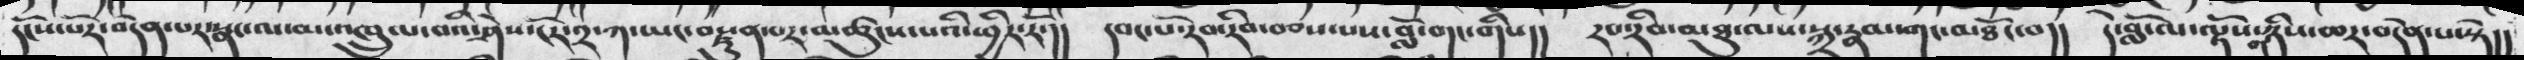དངོས་པོར་བདེན་པར་སྣང་ལ་མ་འཁྲུལ་བའི་ཤེས་ངོར་༢་ཀ་ཡང་བརྫུན་པར་མཚུངས་པའི་ཕྱིར་རོ་།།  དབང་པོ་རབ་རིབ་བཅས་པས་བློ་གང་གིས།།  རབ་རིབ་མཐུ་ལས་སྐྲ་རྣམ་གང་མཐོང་བ།།  དེ་བློ་ལ་ལྟོས་གཉིས་ཆར་བདེན་པ་སྟེ།།
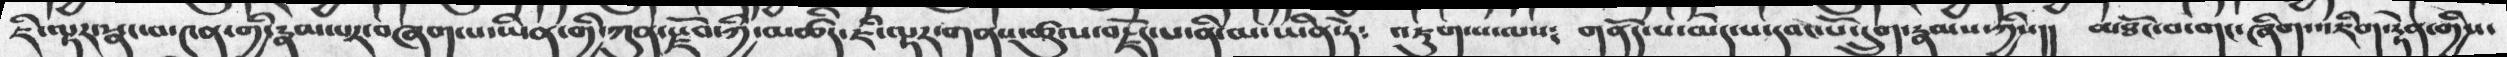ཇི་ལྟར་སྣང་བ་༤ན་གྱི་རྣམ་པར་བཞག་པ་ཡིན་གྱི་ཀུན་སྫོབ་ཀྱི་མཚིད་ཇི་ལྟར་གནས་ཚུལ་བརྗོད་པ་ནི་མ་ཡིན་ཏེ༴ འཇུག་པ་ལས༴ གནོད་པ་མེད་པ་དབང་པོ་དྲུག་རྣམས་ཀྱིས།། མཐོང་བ་གང་ཞིག་འཇིག་རྟེན་གྱིས་
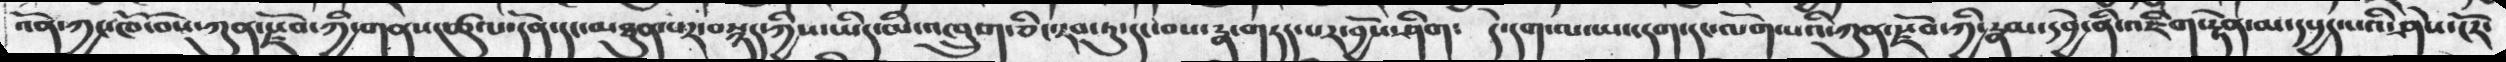འོན་ཀྱང་ཁོ་བོས་ཀུན་སྫོབ་ཀྱི་གནས་ཚུལ་དོན་དང་མཐུན་པར་བསྙད་ཀྱིས་ཡིད་མི་འཁྲུག་ཅིང་རབ་ཏུ་དང་བས་རྣ་གཏད་པར་བྱོས་ཤིག༴ དེ་དག་ལ་ཡང་དག་དང་ལོག་པའི་ཀུན་སྫོབ་ཀྱི་རྣམ་དབྱེ་ནི་འཇིག་རྟེན་མ་དཔྱད་པའི་ཤེས་ངོར་
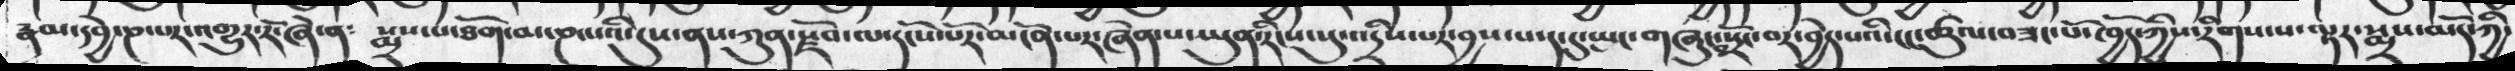རྣམ་དབྱེ་ཎ་པར་འགྱུར་རོ་ཞེ་ན༴  སྨྲས་པ་ཐོག་མ་ཎ་པའི་དུས་ནས་ཀུན་རྫོབ་ལ་དངོས་པོར་མངོན་པར་ཞེན་པ་ཡུན་རིངས་སུ་འདྲིས་པར་བྱས་པ་ད་དུང་སྤང་གཞུང་བསྤྲོང་བར་བྱེད་པའི་ངང་ཚུལ་བཟང་པོ་ཁྱོད་ཀྱིས་རིགས་པ་ལྟར་སྨྲས་མདོ་ཀྱི་
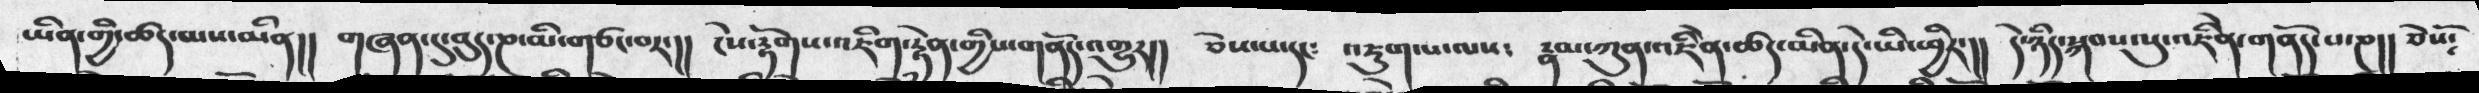ཡིན་གྱི་ཚད་མས་མིན།།  གཞན་དུ་བུད་ཎ་མི་གཙང་བར་།།  ངེས་རྟོགས་འཇིག་རྟེན་གྱིས་གནོད་འགྱུར།།  ཅེས་པ་དང༴  འཇུག་པ་ལས༴  རྣམ་ཀུན་འཇིནེ་ཚད་མིན་དེ་ཡིང་ཕྱིར་།།  དེ་ཉིད་སྐབས་སུ་འཇིནེ་གནོད་པ་ཎ།། ཅེསོ༴
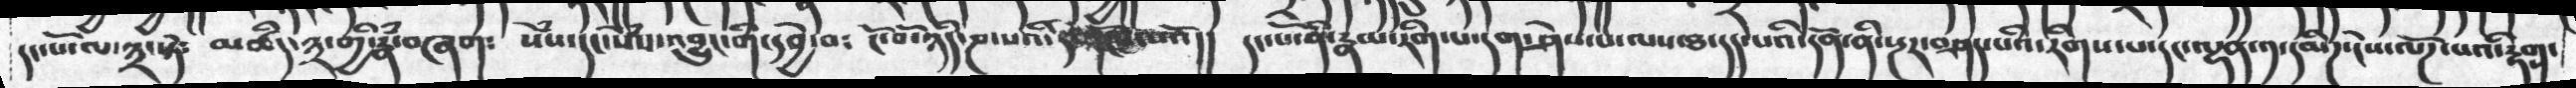དང་པོ་ལ་༣་སྟེ༴  མཚཾད་༣་གྱི་རྣཾ་བཞག༴  སེཾས་དང་སེཾས་འབྱུང་གི་དབྱེ་བ༴  ངོ་བོ་ཉིད་ཎ་པའི་དེ་དངོས་པའོ།།  ་དང་པོ་ནི་རྣམ་རིག་པ་དག་ཤེས་པ་ལས་ཐ་དད་པའི་དོན་ནི་སྔར་བཤད་པའི་རིགས་པ་དང་ལྷན་༡་དམིཌ་ངེས་ལོཌ་པའི་རྟགས།
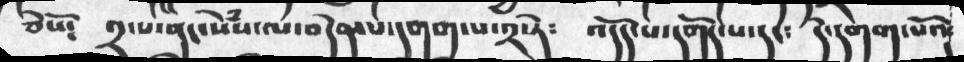ཅེསོ༴ ༢་པ་ནང་སེཾས་ལ་བདེན་པ་དགག་པ་༢་ཏེ༴ འདོད་པ་དགོད་པ་དང༴ དེ་དགག་པའོ
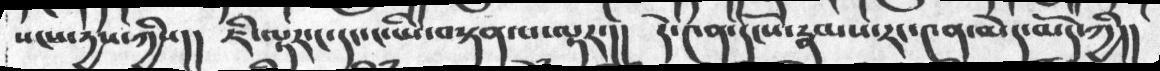སངས་དྱས་ཀྱིས།། ཇི་ལྟར་ང་དང་ང་ཡི་བསྟན་པ་ལྟར་།། དེ་༤ན་དངོས་རྣམས་རང་༤ན་མེདམོད་ཀྱི།།
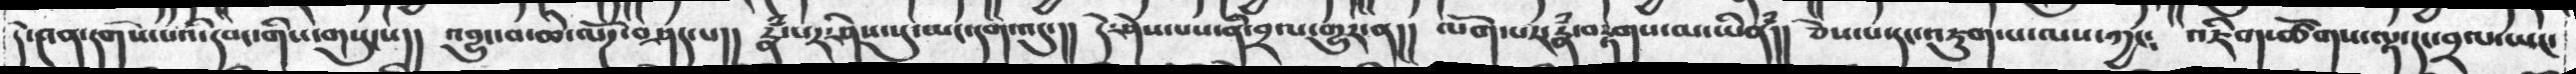དེ་༤ན་དགོས་པའི་དབང་གིས་གསུངས།། འབྱུང་བ་ཆེ་ལོཌ་བཤད་པ།། རྣཾ་པར་ཤེས་སུ་ཡང་དག་འདུ་།། དེ་ཤེས་པས་ནི་བྲལ་གྱུར་ན།། ལོག་པར་རྣཾ་བརྟགས་མ་ཡིནཾ།། ཅེས་པ་དང་འཇུག་པ་ལས་ཀྱང༴ ཅེས་པ་དང་འཇུག་པ་ལས་ཀྱང༴ འཇིག་ཚོགས་ལྟ་དང་བྲལ་ཡང་
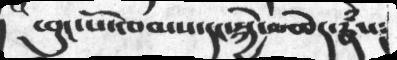ཕུང་པོ་ཁམས་དང་སྐྱེ་མཆེད་རྣཾས༴
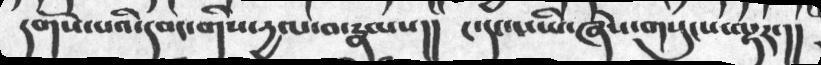དགོས་པའི་དབང་གིས་དྱལ་བ་རྣམས།། ང་དང་ང་ཡི་ཞེས་གསུངས་ལྟར་།།
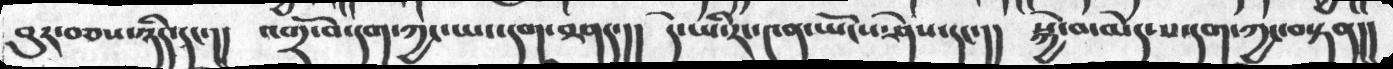བུར་བཅས་ཉིད་དང་།། འགྲོ་བ་དག་ཀྱང་ཡང་དག་བཤད་།། དེ་ཡི་རང་༤ན་ཡོངས་ཤེས་དང་།། སྐྱེ་བ་མེད་པ་དག་ཀྱང་བསྟན།།
